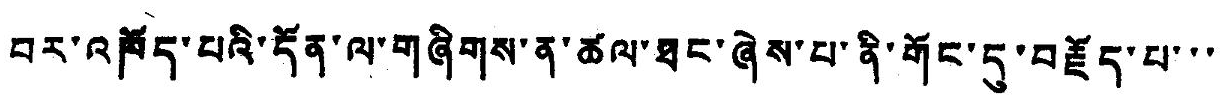བར་འཁོད་པའི་དོན་ལ་གཞིགས་ན་ཚལ་ཐང་ཞེས་པ་ནི་གོང་དུ་བརྗོད་པ་་་
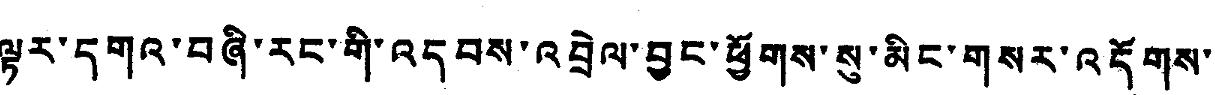ལྟར་དགའ་བཞི་རང་གི་འདབས་འབྲེལ་བྱང་ཕྱོགས་སུ་མིང་གསར་འདོགས་
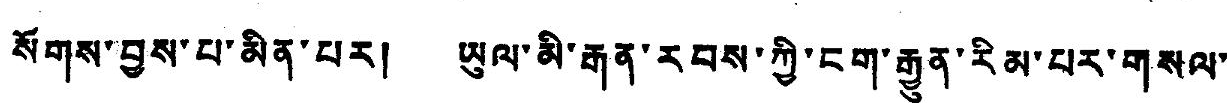སོགས་བྱས་པ་མིན་པར། ཡུལ་མི་རྒན་རབས་ཀྱི་ངག་རྒྱུན་རིམ་པར་གསལ་
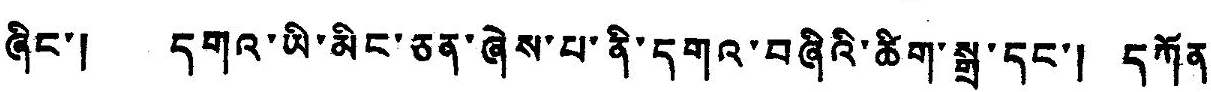ཞིང་། དགའ་ཡི་མིང་ཅན་ཞེས་པ་ནི་དགའ་བཞིའི་ཚིག་སྒྲ་དང་། དཀོན་
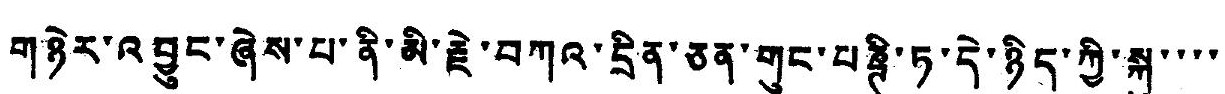གཉེར་འབྱུང་ཞེས་པ་ནི་མི་རྗེ་བཀའ་དྲིན་ཅན་གུང་པཎྚི་ཏ་དེ་ཉིད་ཀྱི་སྐུ་་་་
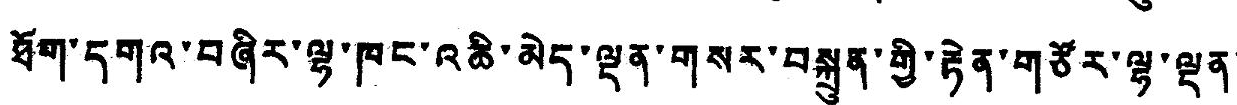ཐོག་འགའ་བཞིར་ལྷ་ཁང་འཆི་མེད་ལྡན་གསར་བསྐྲུན་གྱི་རྟེན་གཙོར་ལྷ་ལྡན་
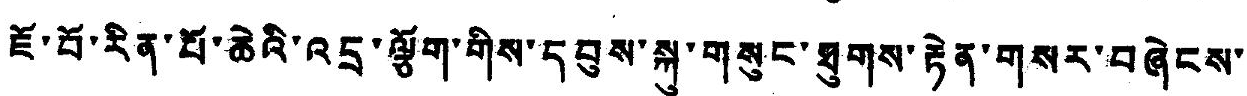ཇོ་བོ་རིན་པོ་ཆེའི་འདྲ་ལྕོག་གིས་དབུས་སྐུ་གསུང་ཐུགས་རྟེན་གསར་བཞེངས་
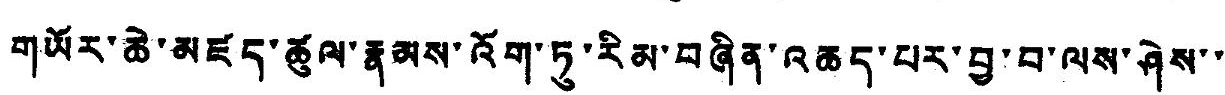གཡོར་ཆེ་མཛད་ཚུལ་རྣམས་འོག་ཏུ་རིམ་བཞིན་འཆད་པར་བྱ་བ་ལས་ཤེས་་
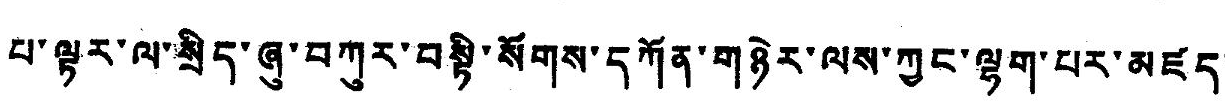པ་ལྟར་ལ་སྲིད་ཞུ་བཀུར་བསྟི་སོགས་དཀོན་གཉེར་ལས་ཀྱང་ལྷག་པར་མཛད་
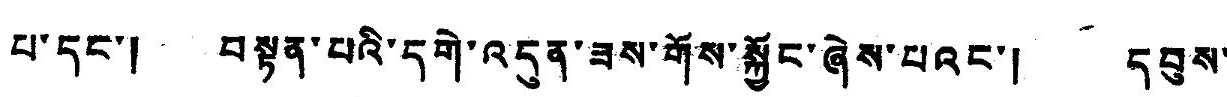པ་དང་། བསྟན་པའི་དགེ་འདུན་ཟས་གོས་སྐྱོང་ཞེས་པའང་། དབུས་
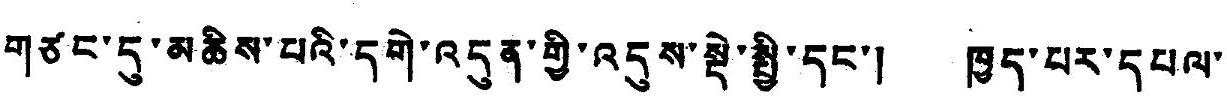གཙང་དུ་མཆིས་པའི་དགེ་འདུན་གྱི་འདུས་སྡེ་སྤྱི་དང་། ཁྱད་པར་དཔལ་
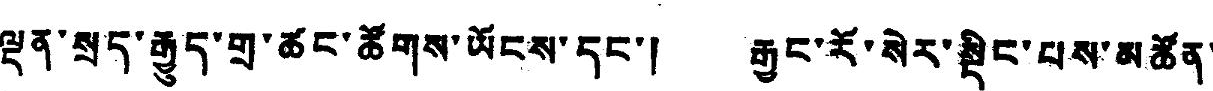ལྡན་སྲད་རྒྱུད་གྲ་ཚང་ཚོགས་ཡོངས་དང་། རྒྱང་རོ་སེར་སྡིང་པས་མཚོན་
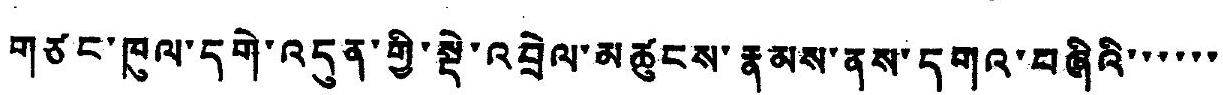གཙང་ཁུལ་དགེ་འདུན་གྱི་སྡེ་འབྲེལ་མཚུངས་རྣམས་ནས་དགའ་བཞིའི་་་་་་
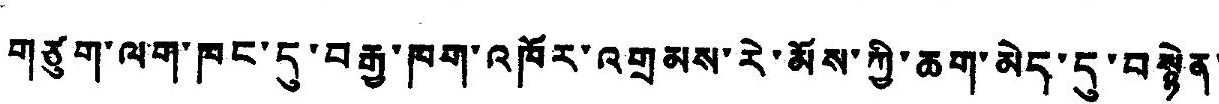གཙུག་ལག་ཁང་དུ་བརྒྱ་ཁག་འཁོར་འགྲམས་རེ་མོས་ཀྱི་ཆག་མེད་དུ་བསྙེན་
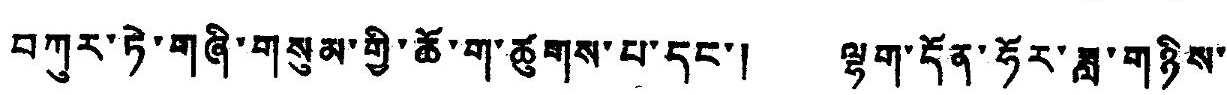བཀུར་ཏེ་གཞི་གསུམ་གྱི་ཆོ་ག་ཚུགས་པ་དང་། ལྷག་དོན་ཧོར་ཟླ་གཉིས་
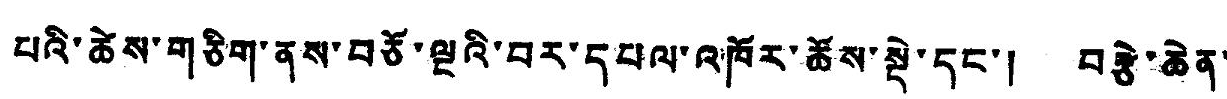པའི་ཚེས་གཅིག་ནས་བཅོ་ལྔའི་བར་དཔལ་འཁོར་ཆོས་སྡེ་དང་། བརྩེ་ཆེན་
